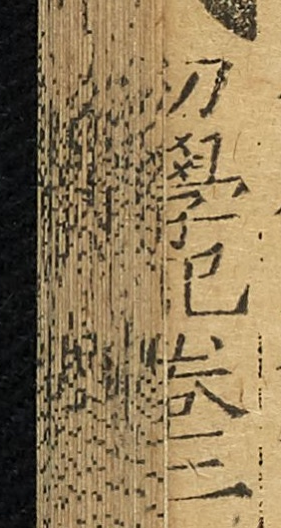初學記卷二
